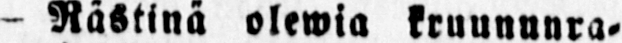- Rästinä olewia kruunuara-
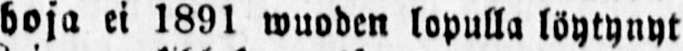hoja ei 1891 wuoden lopulla löytynyt
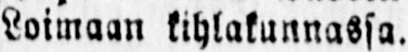Loimaan kihlakunnassa.
